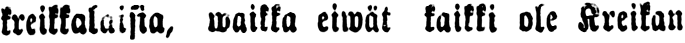kreikkalaisia, waikka eiwät kaikki ole Kreikan
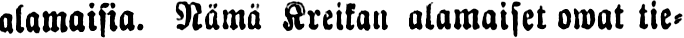alamaista. Nämä Kreikan alamaiset owat tie-
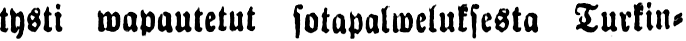tysti wapautetut sotapalweluksesta Turkin-
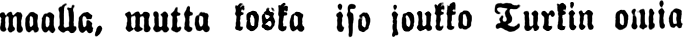maalla, mutta koska iso joukko Turkin omia
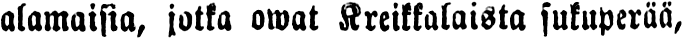alamaista, jotka owat Kreikkalaista sukuperää,
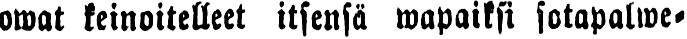owat keinoitelleet itsensä wapaiksi sotapalwe-
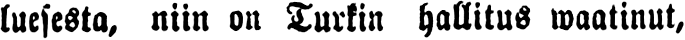luesesta, niin on Turkin hallitus waatinut,
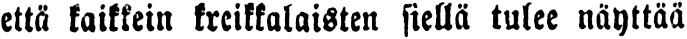että kaikkein kreikkalaisten siellä tulee näyttää
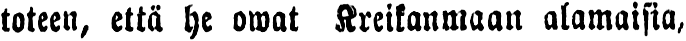toteen, että he owat Kreikanmaan alamaisia,
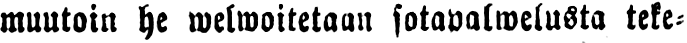muutoin he welwoitetaan sotapalwelusta teke-
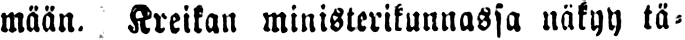mään. Kreikan ministerikunnassa näkyy tä-
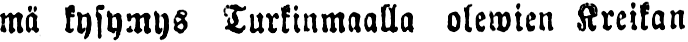mä kysymys Turkinmaalla olewien Kreikan
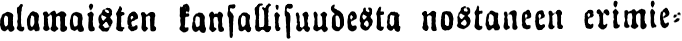alamaisten kansallisuudesta nostaneen erimie-
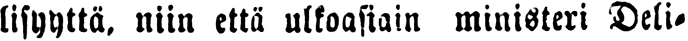lisyyttä, niin että ulkoasiain ministeri Deli-
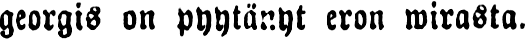georgis on pyytänyt eron wirasta.
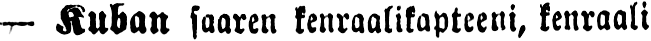— Kuban saaren kenraalikapteeni, kenraali
